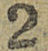2
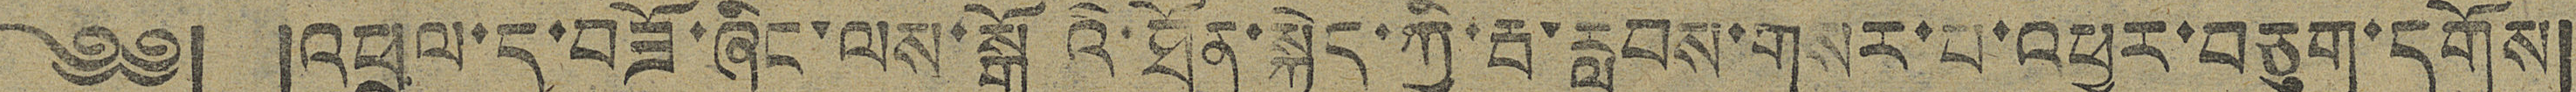༄༅། །འཕྲལ་དུ་བཟོ་ཞིང་ལས་སྒོའི་ཐོན་སྐྱེད་ཀྱི་རྦ་རླབས་གསར་པ་འཕྱུར་བཅུག་དགོས།
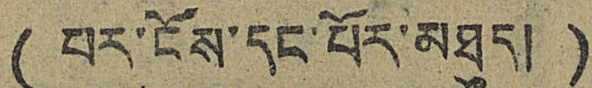( པར་ངོས་དང་པོར་མཐུད། )
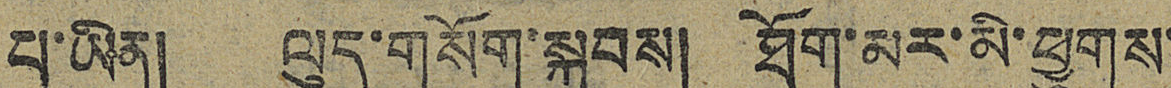པ་ཡིན། ལུད་གསོག་སྐབས། ཐོག་མར་མི་ཕྱུགས་
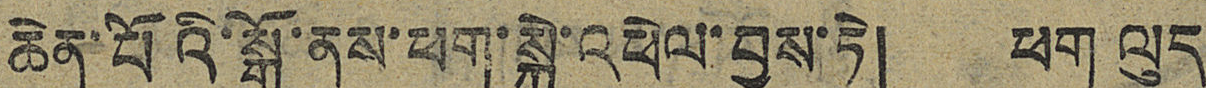ཆེན་པོའི་སྒོ་ནས་ཕག་སྐྱེ་འཕེལ་བྱས་ཏེ། ཕག ལུད
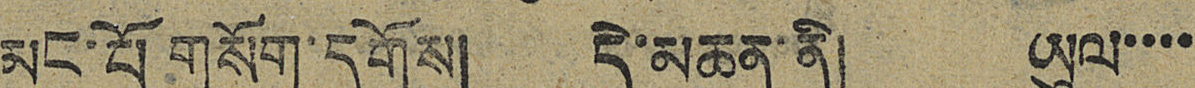མང་པོ གསོག་དགོས། དེ་མཆན་ནི། ཡུལ་་་་
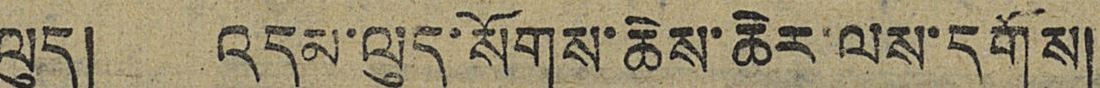ལུད། འདམ་ལུད་སོགས་ཆེས་ཆེར་ལས་དགོས།
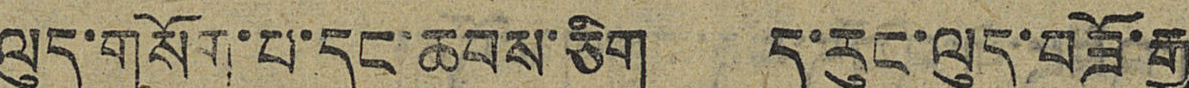ལུད་གསོག་པ་དང་ཆབས་ཅིག ད་རུང་ལུད་བཟོ་རྒྱུ
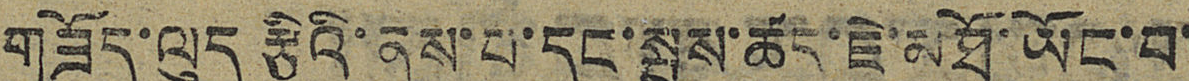གཟོད་ལུད རྩིའི་ནུས་པ་དང་སྤུས་ཚད་ཇེ་མཐོ་ཡོང་བ་
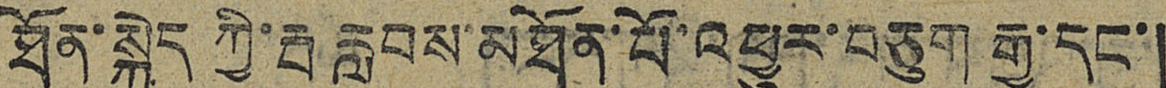ཐོན་སྐྱེད ཀྱི་རྦ རླབས་མཐོན་པོ་འཕྱུར་བཅུག རྒྱུ་དང་།
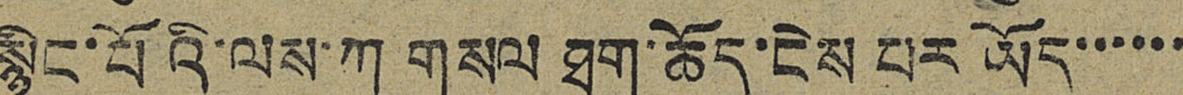སྙིང་པོའི་ལས་ཀ གསལ ཐག་ཆོད་ངེས པར ཡོད་་་་་་
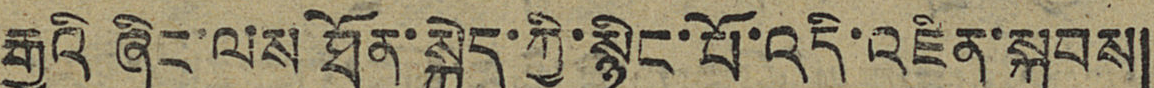རྒྱུའི ཞིང་ལས ཐོན་སྐྱེད་ཀྱི་སྙིང་པོ་འདི་འཛིན་སྐབས།
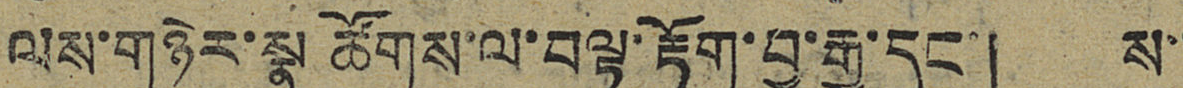ལས་གཉེར་སྣ ཚོགས་ལ་བལྟ་རྟོག་བྱ་རྒྱུ་དང་། ས་་
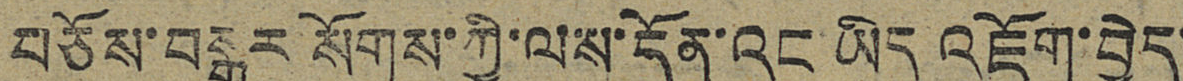བཅོས་བསྒྱུར སོགས་ཀྱི་ལས་དོན་འང ཡིད འཇོག་བྱེད་
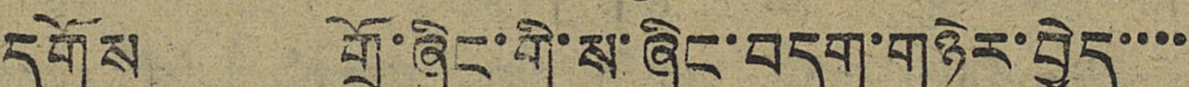དགོས གྲོ་ཞིང་གི་ས་ཞིང་བདག་གཉེར་བྱེད་་་་
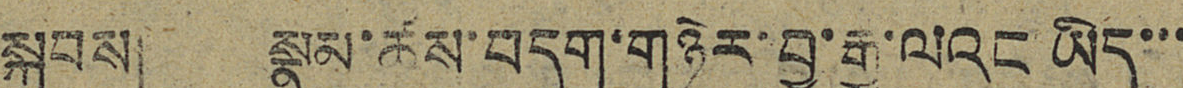སྐབས། སྣུམ་ཚས་བདག་གཉེར་བྱ་རྒྱུ་ལའང ཡིད་་་
